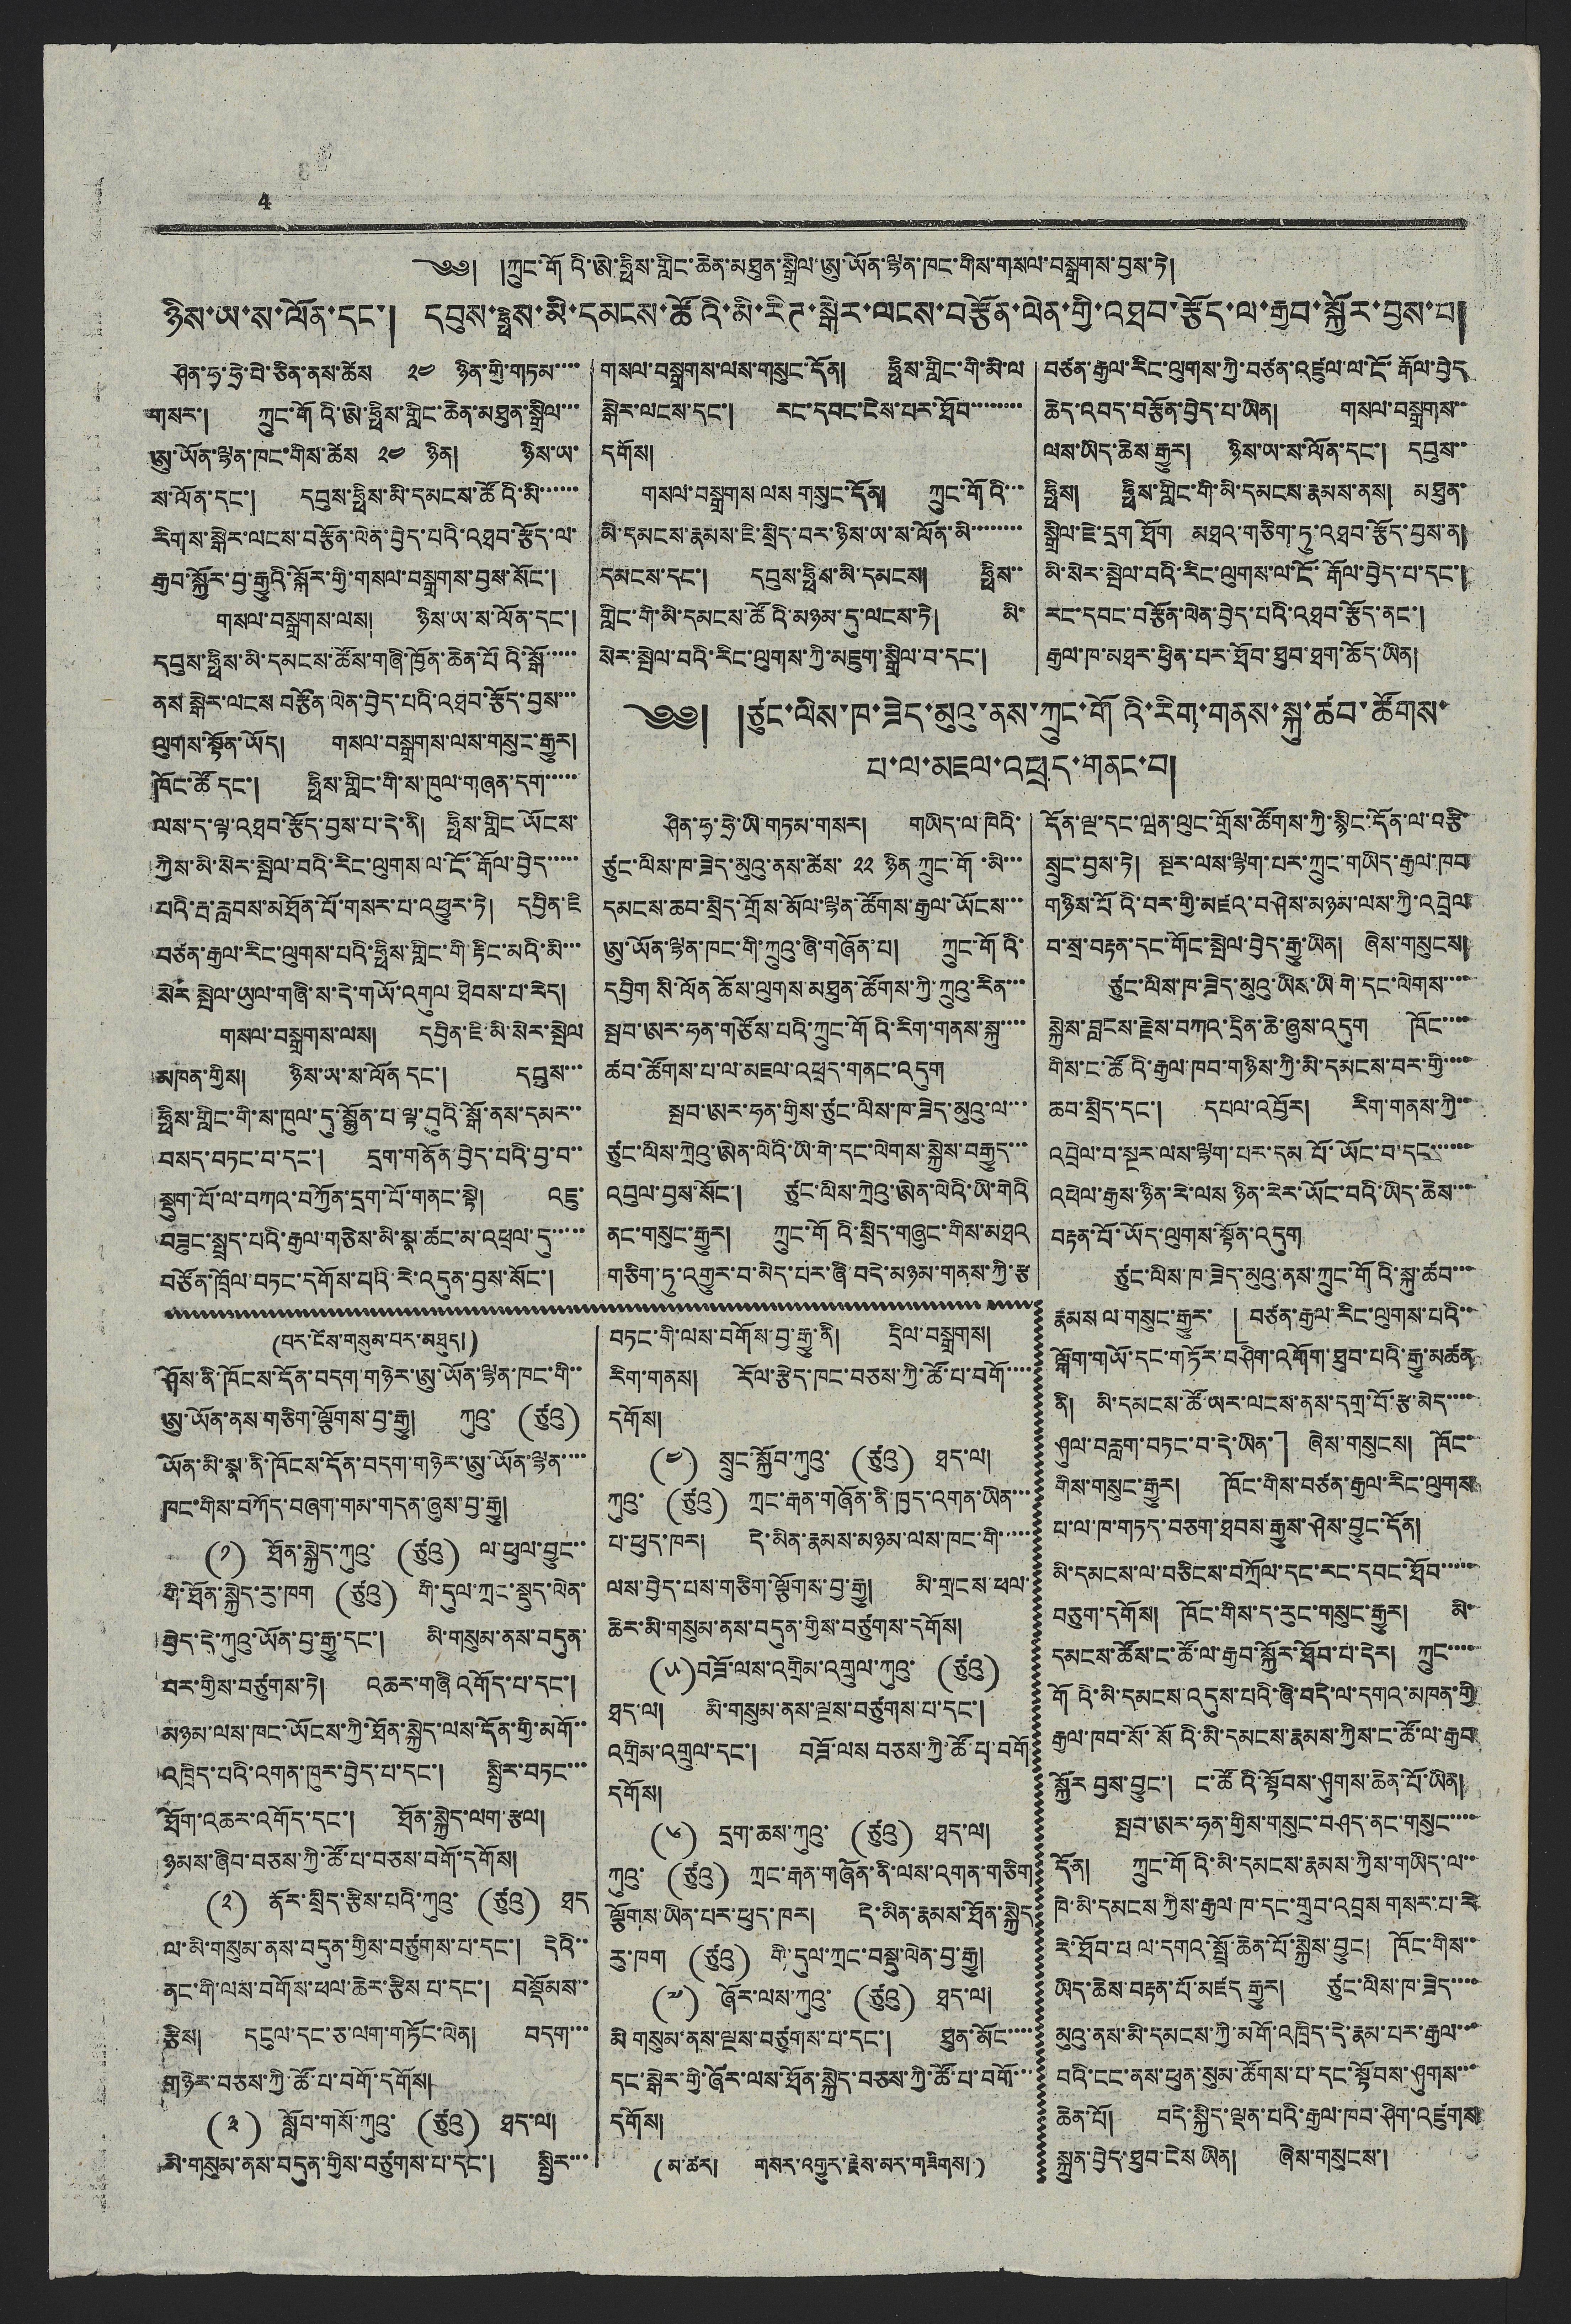4
༄༅། །ཀྲུང་གོའི་ཨེ་ཧྥིས་གླིང་ཆེན་མཐུན་སྒྲིལ་ཨུ་ཡོན་ལྷན་ཁང་གིས་གསལ་བསྒྲགས་བྱས་ཏེ།
ཉིས་ཡ་ས་ལོན་དང་། དབུས་ཧྥིས་མི་དམངས་ཚོའི་མི་རིཊ་སྒེར་ལངས་བརྩོན་ལེན་གྱི་འཐབ་རྩོད་ལ་རྒྱབ་སྐྱོར་བྱས་པ།
ཤིན་ཧྭ་ཧྲེ་པེ་ཅིན་ནས་ཚེས ༢༤ ཉིན་གྱི་གཏམ་་་་
གསར་། ཀྲུང་གོའི་ཨེ་ཧྥིས་གླིང་ཆེན་མཐུན་སྒྲིལ་་་
ཨུ་ཡོན་ལྷན་ཁང་གིས་ཚེས ༢༤ ཉིན། ཉིས་ཡ་
ས་ལོན་དང་། དབུས་ཧྥིས་མི་དམངས་ཚོའི་མི་་་་་་
རིགས་སྒེར་ལངས་བརྩོན་ལེན་བྱེད་པའི་འཐབ་རྩོད་ལ་
རྒྱབ་སྐྱོར་བྱ་རྒྱུའི་སྐོར་གྱི་གསལ་བསྒྲགས་བྱས་སོང་།
གསལ་བསྒྲགས་ལས། ཉིས་ཡ་ས་ལོན་དང་།
དབུས་ཧྥིས་མི་དམངས་ཚོས་གཞི་ཁྱོན་ཆེན་པོའི་སྒོ་་་་་
ནས་སྒེར་ལངས་བརྩོན་ལེན་བྱེད་པའི་འཐབ་རྩོད་བྱས་་་
ལུགས་སྟོན་ཡོད། གསལ་བསྒྲགས་ལས་གསུང་རྒྱུར།
ཁོང་ཚོ དང་། ཧྥིས་གླིང་གི་ས་ཁུལ་གཞན་དག་་་་་
ལས་ད་ལྟ་འཐབ་རྩོད་བྱས་པ་དེ་ནི། ཧྥིས་གླིང་ཡོངས་
ཀྱིས་མི་སེར་སྤེལ་བའི་རིང་ལུགས་ལ་ངོ་རྒོལ་བྱེད་་་་་
པའི་རྦ་རླབས་མཐོན་པོ་གསར་པ་འཕྱུར་ཏེ། དབྱིན་ཇི
བཙན་རྒྱལ་རིང་ལུགས་པའི་ཧྥིས་གླིང་གི་རྟིང་མའི་མི་་་
སེར་སྤེལ་ཡུལ་གཞི་ས་དེ་གཡོ་འགུལ་ཐེབས་པ་རེད།
གསལ་བསྒྲགས་ལས། དབྱིན་ཇི་མི་སེར་སྤེལ
མཁན་གྱིས། ཉིས་ཡ་ས་ལོན དང་། དབུས་་་
ཧྥིས་གླིང་གི་ས་ཁུལ་དུ་སྨྱོན་པ་ལྟ་བུའི་སྒོ་ནས་དམར་་
བསད་བཏང་བ་དང་། དྲག་གནོན་བྱེད་པའི་བྱ་བ་་
སྡུག་པོ་ལ་བཀའ་བཀྱོན་དྲག་པོ་གནང་སྟེ། འཇུ་
བཟུང་སྤྲད་པའི་རྒྱལ་གཅེས་མི་སྣ་ཚང་མ་འཕྲལ་དུ་་་་
བཙོན་ཁྲོལ་བཏང་དགོས་པའི་རེ་འདུན་བྱས་སོང་།
གསལ་བསྒྲགས་ལས་གསུང་དོན། ཧྥིས་གླིང་གི་མི་ལ་
སྒེར་ལངས་དང་། རང་དབང་ངེས་པར་ཐོབ་་་་་་་་
དགོས།
གསལ་བསྒྲགས་ལས གསུང་དོན། ཀྲུང་གོའི་་་
མི་དམངས་རྣམས་ཇི་སྲིད་བར་ཉིས་ཡ་ས་ལོན་མི་་་་་་་་
དམངས་དང་། དབུས་ཧྥིས་མི་དམངས། ཧྥིས་་
གླིང་གི་མི་དམངས་ཚོའི་མཉམ་དུ་ལངས་ཏེ། མི་
སེར་སྤེལ་བའི་རིང་ལུགས་ཀྱི་མཇུག་སྒྲིལ་བ་དང་།
བཙན་རྒྱལ་རིང་ལུགས་ཀྱི་བཙན་འཛུལ་ལ་ངོ་རྒོལ་བྱེད
ཆེད་འབད་བརྩོན་བྱེད་པ་ཡིན། གསལ་བསྒྲགས་་
ལས་ཡིད་ཆེས་རྒྱུར། ཉིས་ཡ་ས་ལོན་དང་། དབུས་་
ཧྥིས། ཧྥིས་གླིང་གི་མི་དམངས་རྣམས་ནས། མཐུན་
སྒྲིལ་ཇེ་དྲག ཐོག མཐའ་གཅིག་ཏུ་འཐབ་རྩོད་བྱས་ན།
མི་སེར་སྤེལ་བའི་རིང་ལུགས་ལ་ངོ་རྒོལ་བྱེད་པ་དང་།
རང་དབང་བརྩོན་ལེན་བྱེད་པའི་འཐབ་རྩོད་ནང་།
རྒྱལ་ཁ་མཐར་ཕྱིན་པར་ཐོབ་ཐུབ་ཐག་ཆོད་ཡིན།
༄༅། །ཙུང་ལིས་ཁ་ཟེད་མུའུ་ནས་ཀྲུང་གོའི་རིག་གནས་སྐུ་ཚབ་ཚོགས་
པ་ལ་མཇལ་འཕྲད་གནང་བ།
ཤིན་ཧྭ་ཧྲེ་ཡི་གཏམ་གསར། གཡིད་ལ་ཁེའི་
ཙུང་ལིས་ཁ་ཟེད་མུའུ་ནས་ཚེས་ ༢༢ ཉིན ཀྲུང་གོ་མི་་་
དམངས་ཆབ་སྲིད་གྲོས་མོལ་ལྷན་ཚོགས་རྒྱལ་ཡོངས་་་
ཨུ་ཡོན་ལྷན་ཁང་གི་ཀྲུའུ་ཞི་གཞོན་པ། ཀྲུང་གོའི
དབྱིག སི་ལོན ཆོས་ལུགས་མཐུན་ཚོགས་ཀྱི་ཀྲུའུ་རིན་་་
སྤབ་ཨར་ཧན་གཙོས་པའི་ཀྲུང་གོའི་རིག་གནས་སྐུ་་་
ཚབ་ཚོགས་པ་ལ་མཇལ་འཕྲད་གནང་འདུག
སྤབ་ཨར་ཧན་གྱིས་ཙུང་ལིས་ཁ་ཟེད་མུའུ་ལ་་་
ཙུང་ལིས་ཀྲེའུ་ཨེན་ལེའི་ཡི་གེ་དང་ལེགས་སྐྱེས་བརྒྱུད་་་
འབུལ་བྱས་སོང་། ཙུང་ལིས་ཀྲེའུ་ཨེན་ལེའི་ཡི་གེའི
ནང་གསུང་རྒྱུར། ཀྲུང་གོའི་སྲིད་གཞུང་གིས་མཐའ
གཅིག་ཏུ་འགྱུར་བ་མེད་པར་ཞི་བདེ་མཉམ་གནས་ཀྱི་རྩ
དོན་ལྔ་དང་ཝན་ལུང་གྲོས་ཚོགས་ཀྱི་སྙིང་དོན་ལ་བརྩི་
སྲུང་བྱས་ཏེ། སྔར་ལས་ལྷག་པར་ཀྲུང་གཡིད་རྒྱལ་ཁབ
བ་སྲ་བརྟན་དང་གོང་སྤེལ་བྱེད་རྒྱུ་ཡིན། ཞེས་གསུངས།
ཙུང་ལིས་ཁ་ཟེད་མུའུ་ཡིས་ཡི གེ་དང་ལེགས་་་་
སྐྱེས་བླངས་རྗེས་བཀའ་དྲིན་ཆེ་ཞུས་འདུག ཁོང་་་་
གིས་ང་ཚོའི་རྒྱལ་ཁབ་གཉིས་ཀྱི་མི་དམངས་བར་གྱི་་་་
ཆབ་སྲིད་དང་། དཔལ་འབྱོར། རིག་གནས་ཀྱི་་
འབྲེལ་བ་སྔར་ལས་ལྷག་པར་དམ པོ་ཡོང་བ་དང་་་་་་
འཕེལ་རྒྱས་ཉིན་རེ་ལས ཉིན་རེར་ཡོང་བའི་ཡིད་ཆེས་་་
བརྟན་པོ་ཡོད་ལུགས་སྟོན་འདུག
ཙུང་ལིས་ཁ་ཟེད་མུའུ་ནས་ཀྲུང་གོའི་སྐུ་ཚབ་་་
རྣམས ལ་གསུང་རྒྱུར་ 「བཙན་རྒྱལ་རིང་ལུགས་པའི་་
ལྐོག་གཡོ་དང་གཏོར་བཤིག་འགོག་ཐུབ་པའི་རྒྱུ་མཚན་
ནི། མི་དམངས་ཚོ་ཡར་ལངས་ནས་དགྲ་བོ་རྩ་མེད་་་་
ཤུལ་བརླག་བཏང་བ་དེ་ཡིན་」 ཞེས་གསུངས། ཁོང་
གིས་གསུང་རྒྱུར། ཁོང་གིས་བཙན་རྒྱལ་རིང་ལུགས
པ་ལ་ཁ་གཏད་བཅག་ཐབས་རྒྱུས་ཤེས་བྱུང་དོན།
མི་དམངས་ལ་བཅིངས་བཀྲོལ་དང་རང་དབང་ཐོབ་་་་་
བཅུག་དགོས། ཁོང་གིས་ད་རུང་གསུང་རྒྱུར། མི་
དམངས་ཚོས་ང་ཚོ་ལ་རྒྱབ་སྐྱོར་ཐོབ་པ་དེར། ཀྲུང་་་་
གོའི་མི་དམངས་འདུས་པའི་ཞི་བདེ་ལ་དགའ་མཁན་གྱི
རྒྱལ་ཁབ་སོ་སོའི་མི་དམངས་རྣམས་ཀྱིས་ང་ཚོ་ལ་རྒྱབ་
སྐྱོར བྱས་བྱུང་། ང་ཚོའི་སྟོབས་ཤུགས་ཆེན་པོ་ཡིན།
སྤབ་ཨར་ཧན་གྱིས་གསུང་བཤད་ནང་གསུང་་་་
དོན། ཀྲུང་གོའི་མི་དམངས་རྣམས་ཀྱིས་གཡིད་ལ་་
ཁེ་མི་དམངས་ཀྱིས་རྒྱལ ཁ་དང་གྲུབ་འབྲས གསར་པ་རེ
རེ་ཐོབ་པ ལ་དགའ་སྤྲོ་ཆེན་པོ་སྐྱེས་བྱུང། ཁོང་གིས་་
ཡིད་ཆེས་བརྟན་པོ་མཛད རྒྱུར། ཙུང་ལིས་ཁ་ཟེད་་་་
མུའུ་ནས་མི་དམངས་ཀྱི་མགོ་འཁྲིད་དེ་རྣམ་པར་རྒྱལ་་་
བའི་ངང་ནས་ཕུན་སུམ་ཚོགས་པ་དང་སྟོབས་ཤུགས་་་
ཆེན་པོ། བདེ་སྐྱིད་ལྡན་པའི་རྒྱལ་ཁབ་ཤིག་འཛུགས་
སྐྲུན་བྱེད་ཐུབ་ངེས ཡིན། ཞེས་གསུངས་།
(པར་ངོས་གསུམ་པར་མཐུད།)
ཤོས་ནི་ཁོངས་དོན་བདག་གཉེར་ཨུ་ཡོན་ལྷན་ཁང་གི་་་
ཨུ་ཡོན་ནས་གཅིག་ལྕོགས་བྱ་རྒྱུ། ཀུའུ་ (ཙུའུ)
ཡོན་མི་སྣ་ནི་ཁོངས་དོན་བདག་གཉེར་ཨུ་ཡོན་ལྷན་་་་
ཁང་གིས་བཀོད་བཞག་གམ་གདན་ཞུས་བྱ་རྒྱུ།
(༡) ཐོན་སྐྱེད་ཀུའུ་ (ཙུའུ) ལ་ཕུལ་བྱུང་་
གི་ཐོན་སྐྱེད་རུ་ཁག (ཙུའུ) གི་དུལ་ཀྲང་སྡུད་ལེན་
བྱེད་དེ་ཀུའུ་ཡོན་བྱ་རྒྱུ་དང་། མི་གསུམ་ནས་བདུན་
བར་གྱིས་བཙུགས་ཏེ། འཆར་གཞི འགོད་པ་དང་།
མཉམ་ལས་ཁང་ཡོངས་ཀྱི་ཐོན་སྐྱེད་ལས་དོན་གྱི་མགོ་
འཁྲིད་པའི་འགན་ཁུར་བྱེད་པ་དང་། སྤྱིར་བཏང་་་
ཐོག་འཆར་འགོད་དང་། ཐོན་སྐྱེད་ལག་རྩལ།
ཉམས་ཞིབ་བཅས་ཀྱི་ཚོ་པ་བཅས་བགོ་དགོས།
(༢) ནོར་སྲིད་རྩིས་པའི་ཀུའུ་ (ཙུའུ) ཐད
ལ་མི་གསུམ་ནས་བདུན་གྱིས་བཙུགས་པ་དང་། དེའི་་
ནང་གི་ལས་བགོས་ཕལ་ཆེར་རྩིས པ་དང་། བསྡོམས་་
རྩིས། དངུལ་དང་ཅ་ལག་གཏོང་ལེན། བདག་་་
གཉེར་བཅས་ཀྱི་ཚོ་པ་བགོ་དགོས།
(༣) སློབ་གསོ་ཀུའུ་ (ཙུའུ) ཐད་ལ།
མི་གསུམ་ནས་བདུན་གྱིས་བཙུགས་པ་དང་། སྤྱིར་་་
བཏང་གི་ལས་བགོས་བྱ་རྒྱུ་ནི། དྲིལ་བསྒྲགས།
རིག་གནས། རོལ་རྩེད་ཁང་བཅས་ཀྱི་ཚོ་པ་བགོ་་་་
དགོས།
(༤) སྲུང་སྐྱོབ་ཀུའུ་ (ཙུའུ) ཐད་ལ།
ཀུའུ་ (ཙུའུ) ཀྲང་རྒན་གཞོན་ནི་ཁྱད་འགན་ཡིན་་
པ་ཕུད་ཁར། དེ་མིན་རྣམས་མཉམ་ལས་ཁང་གི་་་་་
ལས་བྱེད་པས་གཅིག་ལྕོགས་བྱ་རྒྱུ། མི་གྲངས་ཕལ་
ཆེར་མི་གསུམ་ནས་བདུན་གྱིས་བཙུགས་དགོས།
(༥) བཟོ་ལས་འགྲིས་འགྲུལ་ཀུའུ་ (ཙུའུ)
ཐད་ལ། མི་གསུམ་ནས་ལྔས་བཙུགས་པ་དང་།
འགྲིམ་འགྲུལ་དང་། བཟོ་ལས བཅས་ཀྱི་ཚོ་པ་བགོ
དགོས།
(༦) དྲག་ཆས་ཀུའུ་ (ཙུའུ) ཐད་ལ།
ཀུའུ་ (ཙུའུ) ཀྲང་རྒན་གཞོན་ནི་ལས་འགན་གཅིག
ལྕོགས་ཡིན་པར་ཕུད་ཁར། དེ་མིན་རྣམས་ཐོན་སྐྱེད
རུ་ཁག (ཙུའུ) གི་དུལ་ཀྲང་བསྡུ་ལེན་བྱ་རྒྱུ།
(༧) ཞོར་ལས་ཀུའུ་ (ཙུའུ) ཐད་ལ་
མི གསུམ་ནས་ལྔས་བཙུགས་པ་དང་། ཐུན་མོང་་་་
དང་སྒེར་གྱི་ཞོར་ལས་ཐོན་སྐྱེད་བཅས་ཀྱི་ཚོ་པ་བགོ་་་
དགོས།
(མ་ཚར། གསར་འགྱུར་རྗེས་མར་གཟིགས།)
